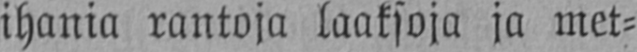ihania rantoja laaksoja ja met-
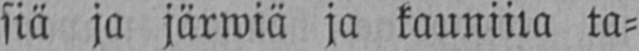siä ja järwiä ja kauniita ta-
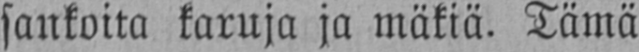sankoita karuja ja mäkiä. Tämä
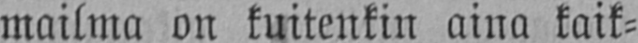mailma on kuitenkin aina kaik-
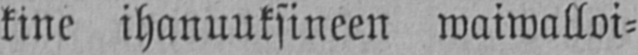kine ihanuuksineen waiwalloi-
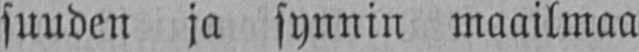suuden ja synnin maailmaa
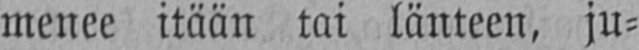menee itään tai länteen, ju-
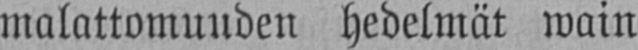malattomuuden hedelmät wain
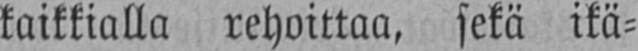kaikkialla rehoittaa, sekä ikä-
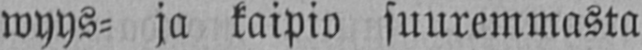wyys- ja kaipio suuremmasta
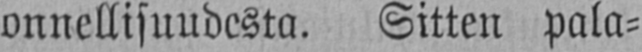onnellisuudesta. Sitten pala-
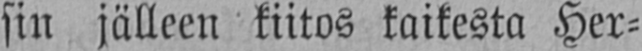sin jälleen kiitos kaikesta Her-
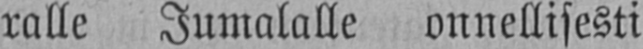ralle Jumalalle onnellisesti
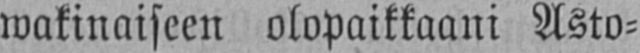wakinaiseen olopaikkaani Asto-
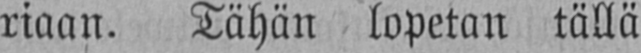riaan. Tähän lopetan tällä
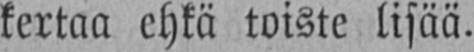kertaa ehkä toiste lisää.
